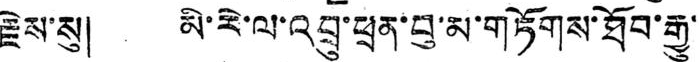རྗེས་སུ། མི་རེ་ལ་འབྲུ་ཕྲན་བུ་མ་གཏོགས་ཐོབ་རྒྱུ་
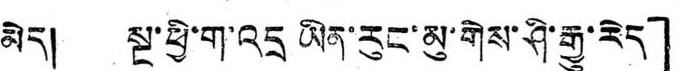མེད། སྔ་ཕྱི་ག་འདྲ ཡིན་རུང་མུ་གེས་ཤི་རྒྱུ་རེད」
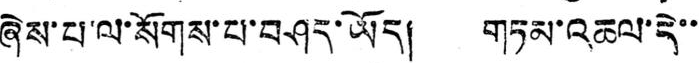ཞེས་པ་ལ་སོགས་པ་བཤད་ཡོད། གཏམ་འཆལ་དེ་་
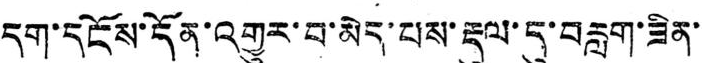དག་དངོས་དོན་འགྱུར་བ་མེད་པས་རྡུལ་དུ་བརླག་ཟིན་
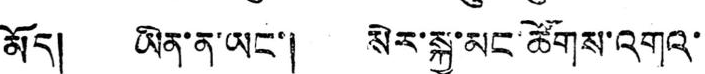མོད། ཡིན་ན་ཡང་། སེར་སྐྱ་མང་ཚོགས་འགའ་
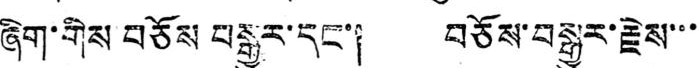ཞིག་གིས བཅོས བསྒྱུར་དང་། བཅོས་བསྒྱུར་རྗེས་་་
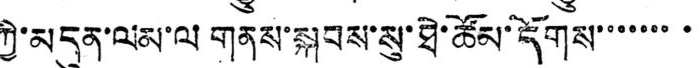ཀྱི་མདུན་ལམ་ལ གནས་སྐབས་སུ་ཐེ་ཚོམ་དོགས་་་་་་་་
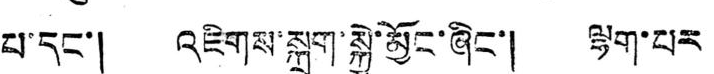པ་དང་། འཇིགས་སྐྲག་སྐྱེ་མྱོང་ཞིང་། ལྷག་པར
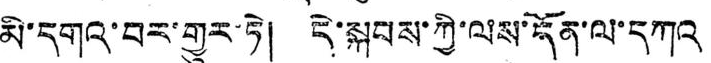མི་དགའ་བར་གྱུར་ཏེ། དེ་སྐབས་ཀྱི་ལས་དོན་ལ་དཀའ
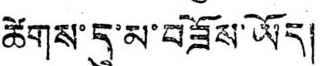ཚེགས་དུ་མ་བཟོས་ཡོད།
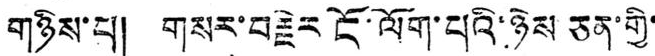གཉིས་པ། གསར་བརྗེར ངོ་ལོག་པའི་ཉེས ཅན་གྱི་
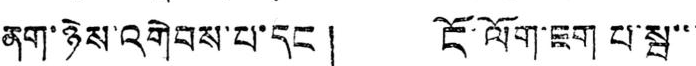ནག་ཉེས་འགེབས་པ་དང ། ངོ་ལོག་ཇག པ་སྦ་་་
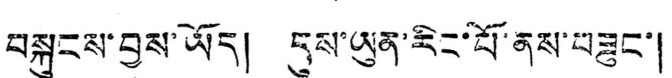བསྐུངས་བྱས་ཡོད། དུས་ཡུན་རིང་པོ་ནས་བཟུང་།
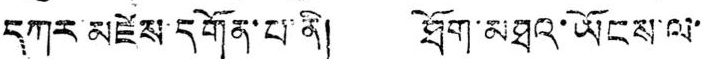དཀར་མཛེས་དགོན་པ་ནི། ཐོག་མཐའ་ཡོངས་ལ་
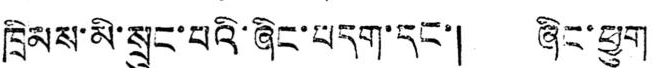ཁྲིམས་མི་སྲུང་བའི་ཞིང་བདག་དང་། ཞིང་ཕྱུག
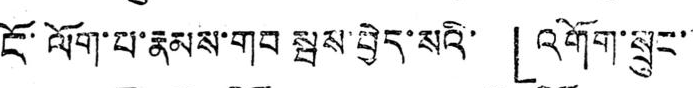ངོ་ལོག་པ་རྣམས་གབ སྦས་བྱེད་སའི་ 「འགོག་སྲུང་་
